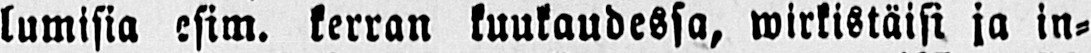lumisia esim. kerran kuukaudessa, wirkistäisi ja in-
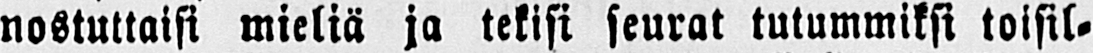nostuttaisi mieliä ja tekisi seurat tutummiksi toisil-
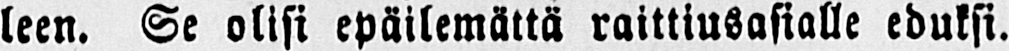leen. Se olisi epäilemättä raittiusasialle eduksi.
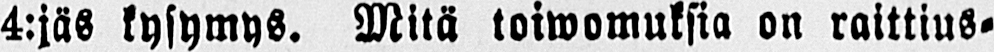4:jäs kysymys. Mitä toiwomuksia on raittius-
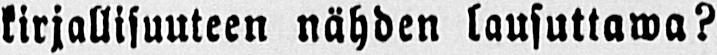kirjallisuuteen nähden lausuttawa?
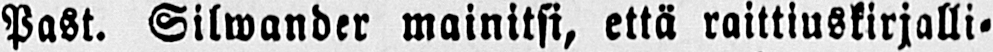Past. Silwander mainitsi, että raittiuskirjalli-
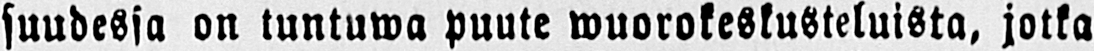suudessa on tuntuwa puute wuorokeskusteluista, jotka
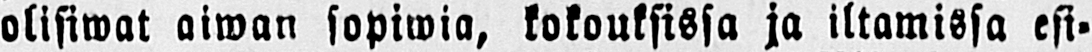olisiwat aiwan sopiwia, kokouksissa ja iltamissa esi-
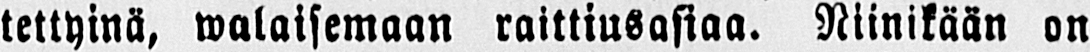tettyinä, walaisemaan raittiusasiaa. Niinikään on
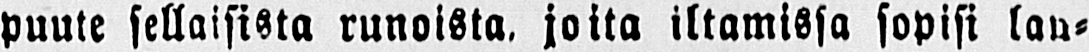puute sellaisista runoista, joita iltamissa sopisi lau-
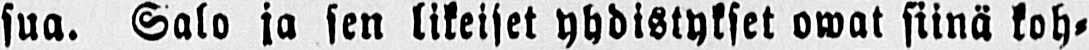sua. Salo ja sen likeiset yhdistykset owat siinä koh-
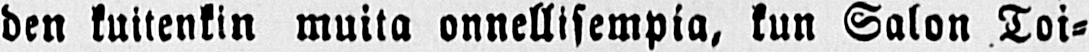den kuitenkin muita onnellisempia, kun Salon Toi-
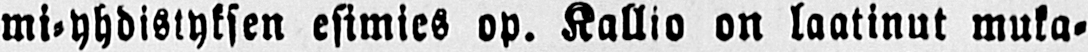mi-yhdistyksen esimies op. Kallio on laatinut muka-
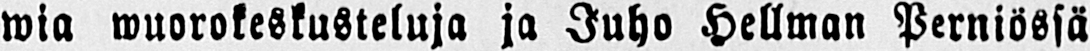wia wuorokeskusteluja ja Juho Hellman Perniössä
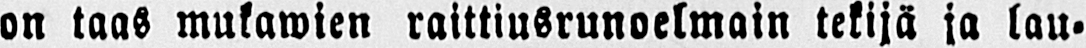on taas mukawien raittiusrunoelmain tekijä ja lau-
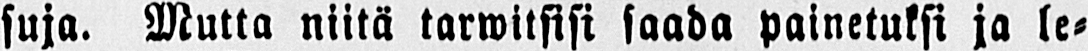suja. Mutta niitä tarwitsisi saada painetuksi ja le-
